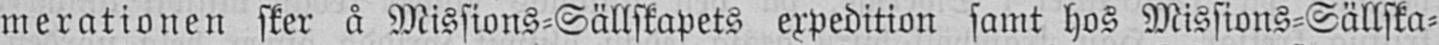merationen sker å Missions-Sällskapets expedition samt hos Missions-Sällska-
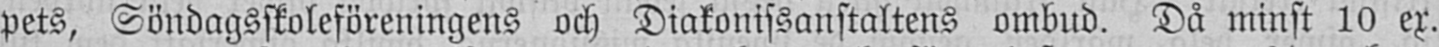pets, Söndagsskoleföreningens och Diakonissanstaltens ombud. Då minst 10 ex.
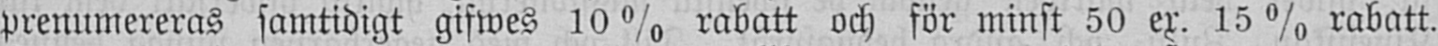prenumereras samtidigt gifwes 10 % rabatt och för minst 50 ex. 15 % rabatt.
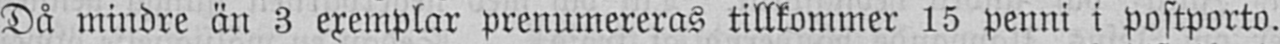Då mindre än 3 exemplar prenumereras tillkommer 15 penni i postporto.
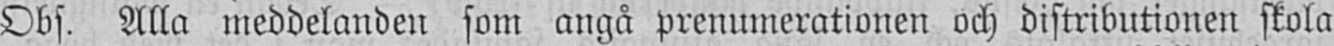Obs. Alla meddelanden som angå prenumerationen och distributionen skola
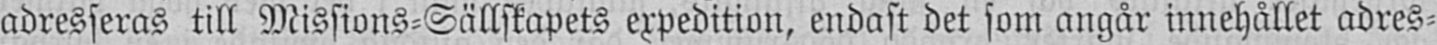adresseras till Missions-Sällskapets expedition, endast det som angår innehållet adres-
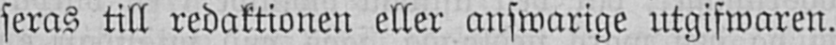seras till redaktionen eller answarige utgifwaren.
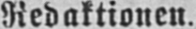Redaktionen.
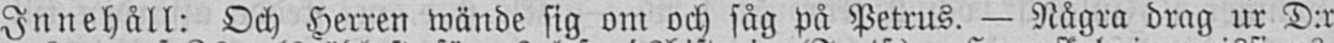Innehåll: Och Herren wände sig om och såg på Petrus. — Några drag ur D:r
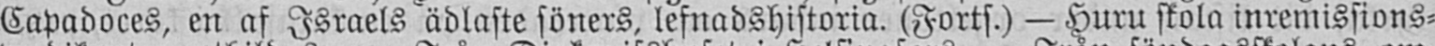Capadoces, en af Israels ädlaste söners, lefnadshistoria. (Forts.) — Huru skola inremissions-
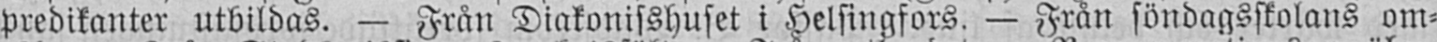predikanter utbildas. — Från Diakonisshuset i Helsingfors. — Från söndagsskolans om-
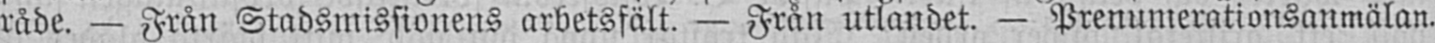råde, — Från Stadsmissionens arbetsfält. — Från utlandet. — Prenumerationsanmälan.
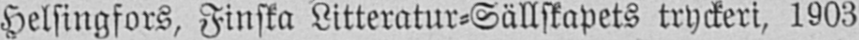Helsingfors, Finska Litteratur-Sällskapets tryckeri, 1903
